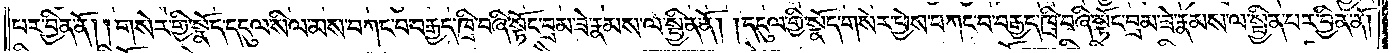པར་བྱིན་ནོ། །གསེར་གྱི་སྣོད་དངུལ་སིལ་མས་བཀང་བ་བརྒྱད་ཁྲི་བཞི་སྟོང་བྲམ་ཟེ་རྣམས་ལ་སྦྱིན་ནོ། །དངུལ་གྱི་སྣོད་གསེར་ཕྱེས་བཀང་བ་བརྒྱད་ཁྲི་བཞི་སྟོང་བྲམ་ཟེ་རྣམས་ལ་སྦྱིན་པར་བྱིན་ནོ།
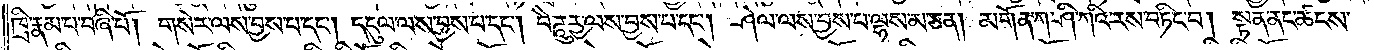ཁྲི་རྣམ་པ་བཞི་པོ། གསེར་ལས་བྱས་པ་དང༌། དངུལ་ལས་བྱས་པ་དང༌། བཻ་ཌཱུརྱ་ལས་བྱས་པ་དང༌། ཤེལ་ལས་བྱས་པ་ལྷས་མ་ཅན། མགོན་ཀ་ཤི་ཀའི་རས་བཏིང་བ། སྟན་ནང་ཚངས་
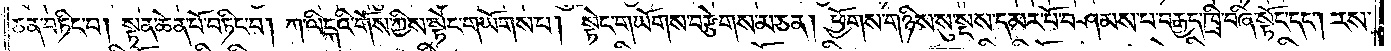ཅན་བཏིང་བ། སྟན་ཆེན་པོ་བཏིང་བ། ཀ་ལིངྐའི་གོས་ཀྱིས་སྟེང་གཡོགས་པ། སྟེང་གཡོགས་བརྩེགས་མ་ཅན། ཕྱོགས་གཉིས་སུ་སྔས་དམར་པོ་བཤམས་པ་བརྒྱད་ཁྲི་བཞི་སྟོང་དང༌། རས་
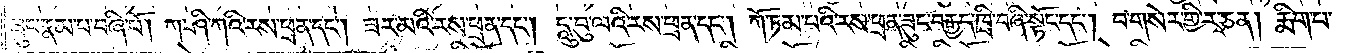ཟུང་རྣམ་པ་བཞི་པོ། ཀ་ཤི་ཀའི་རས་ཕྲན་དང༌། ཟར་མའི་རས་ཕྲན་དང༌། དཱུ་བུ་ལའི་རས་ཕྲན་དང༌། ཀོ་ཏམ་པའི་རས་ཕྲན་ཟུང་བརྒྱད་ཁྲི་བཞི་སྟོང་དང༌། བ་གསེར་གྱི་རྭ་ཅན། རྨིག་པ་
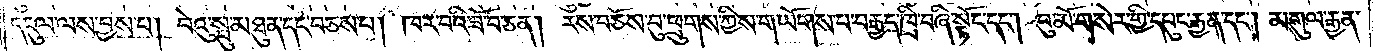དངུལ་ལས་བྱས་པ། བེའུ་སྤུ་མཐུན་དང་བཅས་པ། ཁར་བའི་ཟོ་བ་ཅན། རས་བཅོས་བུ་ཕྲུགས་ཀྱིས་གཡོགས་པ་བརྒྱད་ཁྲི་བཞི་སྟོང་དང༌། བུ་མོ་གསེར་གྱི་དཔུང་བརྒྱན་དང༌། མགུལ་རྒྱན་
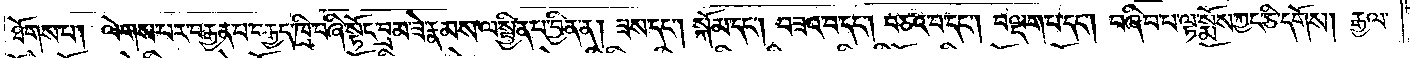ཐོགས་པ། ལེགས་པར་བརྒྱན་པ་བརྒྱད་ཁྲི་བཞི་སྟོང་བྲམ་ཟེ་རྣམས་ལ་སྦྱིན་པ་བྱིན་ན། ཟས་དང༌། སྐོམ་དང༌། བཟའ་བ་དང༌། བཅའ་བ་དང༌། བལྡག་པ་དང༌། བཞིབ་པ་ལྟ་སྨོས་ཀྱང་ཅི་དགོས། རྒྱལ་
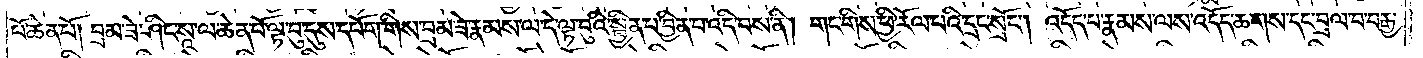པོ་ཆེན་པོ། བྲམ་ཟེ་ཤིང་སཱ་ལ་ཆེན་པོ་ལྟ་བུ་དུས་དཔོག་གིས་བྲམ་ཟེ་རྣམས་ལ་དེ་ལྟ་བུའི་སྦྱིན་པའི་བྱིན་པ་འདི་བས་ནི། གང་གིས་ཕྱི་རོལ་པའི་དྲང་སྲོང༌། འདོད་པ་རྣམས་ལས་འདོད་ཆགས་དང་བྲལ་བ་བརྒྱ་
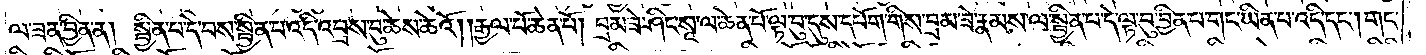ལ་ཟན་བྱིན་ན། སྦྱིན་པ་དེ་བས་སྦྱིན་པ་འདི་འབྲས་བུ་ཆེས་ཆེའོ། །རྒྱལ་པོ་ཆེན་པོ། བྲམ་ཟེ་ཤིང་སཱ་ལ་ཆེན་པོ་ལྟ་བུ་དུས་དཔོག་གིས་བྲམ་ཟེ་རྣམས་ལ་སྦྱིན་པ་དེ་ལྟ་བུ་བྱིན་པ་གང་ཡིན་པ་འདི་དང༌། གང་
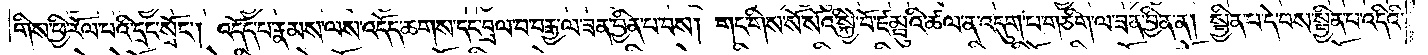གིས་ཕྱི་རོལ་པའི་དྲང་སྲོང༌། འདོད་པ་རྣམས་ལས་འདོད་ཆགས་དང་བྲལ་བ་བརྒྱ་ལ་ཟན་བྱིན་པ་བས། གང་གིས་སོ་སོའི་སྐྱེ་བོ་ཛམྦུའི་ཚལ་ན་འདུག་པ་གཅིག་ལ་ཟན་བྱིན་ན། སྦྱིན་པ་དེ་བས་སྦྱིན་པ་འདིའི་
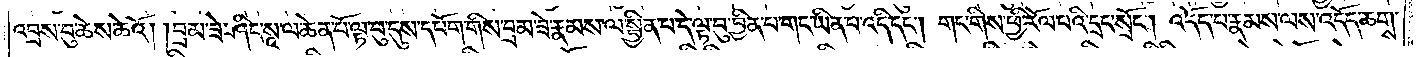འབྲས་བུ་ཆེས་ཆེའོ། །བྲམ་ཟེ་ཤིང་སཱ་ལ་ཆེན་པོ་ལྟ་བུ་དུས་དཔོག་གིས་བྲམ་ཟེ་རྣམས་ལ་སྦྱིན་པ་དེ་ལྟ་བུ་བྱིན་པ་གང་ཡིན་པ་འདི་དང༌། གང་གིས་ཕྱི་རོལ་པའི་དྲང་སྲོང༌། འདོད་པ་རྣམས་ལས་འདོད་ཆགས་
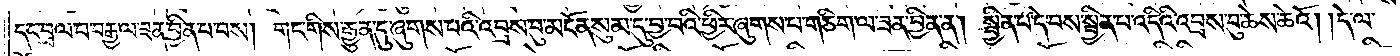དང་བྲལ་བ་བརྒྱ་ལ་ཟན་བྱིན་པ་བས། གང་གིས་རྒྱུན་དུ་ཞུགས་པའི་འབྲས་བུ་མངོན་སུམ་དུ་བྱ་བའི་ཕྱིར་ཞུགས་པ་གཅིག་ལ་ཟན་བྱིན་ན། སྦྱིན་པ་དེ་བས་སྦྱིན་པ་འདིའི་འབྲས་བུ་ཆེས་ཆེའོ། །དེ་ལ་
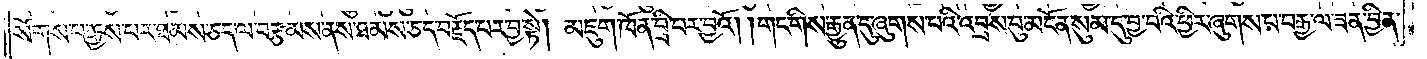སོགས་པ་རྒྱས་པར་ཐམས་ཅད་ལ་བརྩམས་ནས་ཐམས་ཅད་བརྗོད་པར་བྱ་སྟེ། མཇུག་ཁོ་ན་བྲི་བར་བྱའོ། །གང་གིས་རྒྱུན་དུ་ཞུགས་པའི་འབྲས་བུ་མངོན་སུམ་དུ་བྱ་བའི་ཕྱིར་ཞུགས་པར་བརྒྱ་ལ་ཟན་བྱིན་
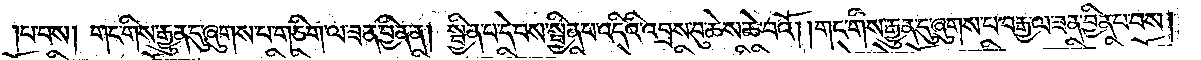པ་བས། གང་གིས་རྒྱུན་དུ་ཞུགས་པ་གཅིག་ལ་ཟན་བྱིན་ན། སྦྱིན་པ་དེ་བས་སྦྱིན་པ་འདིའི་འབྲས་བུ་ཆེས་ཆེ་བའོ། །གང་གིས་རྒྱུན་དུ་ཞུགས་པ་བརྒྱ་ལ་ཟན་བྱིན་པ་བས།
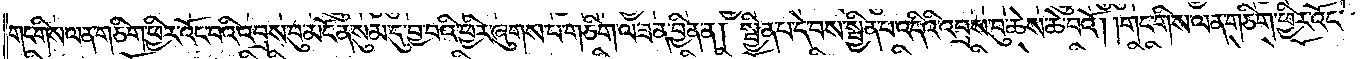གང་གིས་ལན་གཅིག་ཕྱིར་འོང་བའི་འབྲས་བུ་མངོན་སུམ་དུ་བྱ་བའི་ཕྱིར་ཞུགས་པ་གཅིག་ལ་ཟན་བྱིན་ན། སྦྱིན་པ་དེ་བས་སྦྱིན་པ་འདིའི་འབྲས་བུ་ཆེས་ཆེ་བའོ། །གང་གིས་ལན་གཅིག་ཕྱིར་འོང་
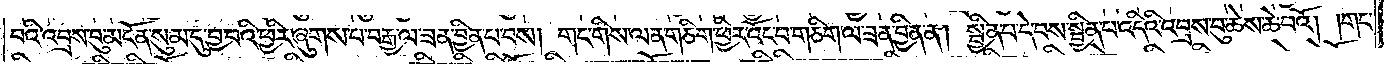བའི་འབྲས་བུ་མངོན་སུམ་དུ་བྱ་བའི་ཕྱིར་ཞུགས་པ་བརྒྱ་ལ་ཟན་བྱིན་པ་བས། གང་གིས་ལན་གཅིག་ཕྱིར་འོང་བ་གཅིག་ལ་ཟན་བྱིན་ན། སྦྱིན་པ་དེ་བས་སྦྱིན་པ་འདིའི་འབྲས་བུ་ཆེས་ཆེ་བའོ། །གང་
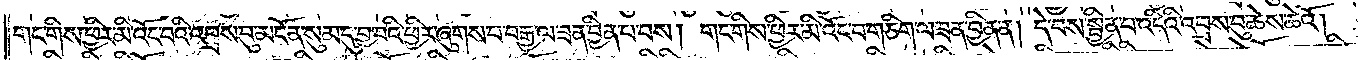གང་གིས་ཕྱིར་མི་འོང་བའི་འབྲས་བུ་མངོན་སུམ་དུ་བྱ་བའི་ཕྱིར་ཞུགས་པ་བརྒྱ་ལ་ཟན་བྱིན་པ་བས། གང་གིས་ཕྱིར་མི་འོང་བ་གཅིག་ལ་ཟན་བྱིན་ན། དེ་བས་སྦྱིན་པ་འདིའི་འབྲས་བུ་ཆེས་ཆེའོ། །
